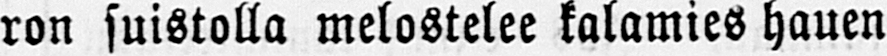ron suistolla melostelee kalamies hauen
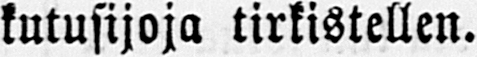kutusijoja tirkistellen.
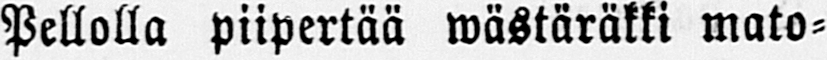Pellolla piipertää wästäräkki mato-
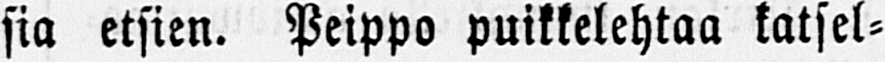sia etsien. Peippo puikkelehtaa katsel-
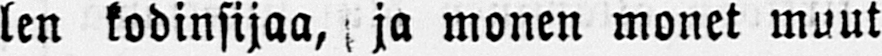len kodinsijaa, ja monen monet muut
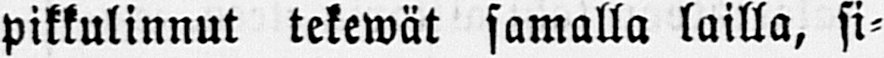pikkulinnut tekewät samalla lailla, si-
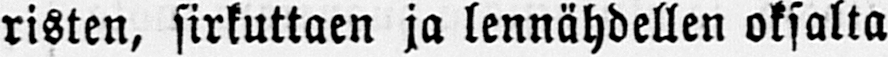risten, sirkuttaen ja lennähdellen oksalta
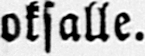oksalle.
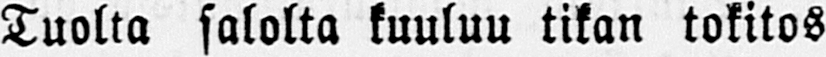Tuolta salolta kuuluu tikan tokitos
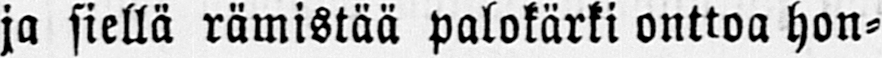ja siellä rämistää palokärki onttoa hon-
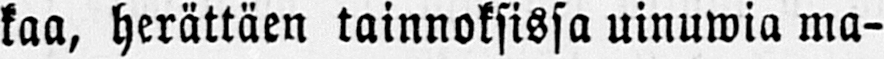kaa, herättäen tainnoksissa uinuwia ma-
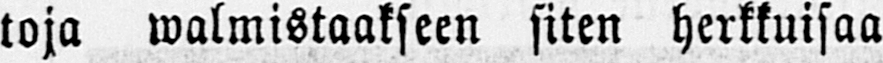toja walmistaakseen siten herkkuisaa
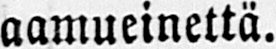aamueinettä.
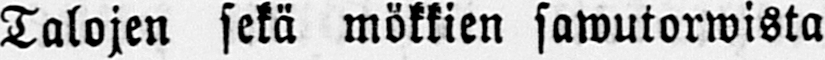Talojen sekä mökkien sawutorwista
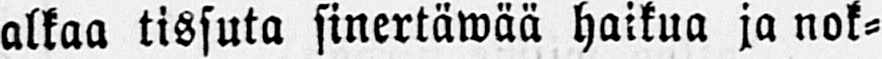alkaa tissuta sinertäwää haikua ja nok-
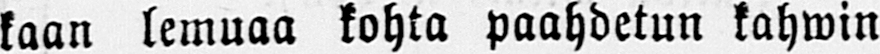kaan lemuaa kohta paahdetun kahwin
